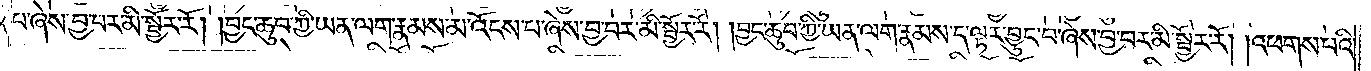པ་ཞེས་བྱ་བར་མི་སྦྱོར་རོ། །བྱང་ཆུབ་ཀྱི་ཡན་ལག་རྣམས་མ་འོངས་པ་ཞེས་བྱ་བར་མི་སྦྱོར་རོ། །བྱང་ཆུབ་ཀྱི་ཡན་ལག་རྣམས་ད་ལྟར་བྱུང་བ་ཞེས་བྱ་བར་མི་སྦྱོར་རོ། །འཕགས་པའི་
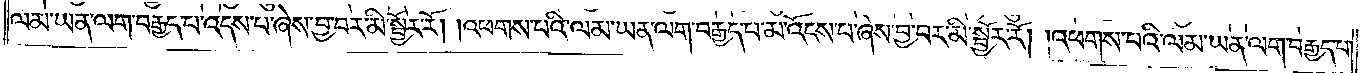ལམ་ཡན་ལག་བརྒྱད་པ་འདས་པ་ཞེས་བྱ་བར་མི་སྦྱོར་རོ། །འཕགས་པའི་ལམ་ཡན་ལག་བརྒྱད་པ་མ་འོངས་པ་ཞེས་བྱ་བར་མི་སྦྱོར་རོ། །འཕགས་པའི་ལམ་ཡན་ལག་བརྒྱད་པ་
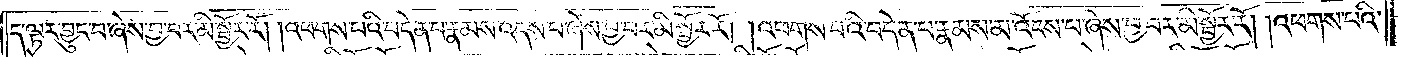ད་ལྟར་བྱུང་བ་ཞེས་བྱ་བར་མི་སྦྱོར་རོ། །འཕགས་པའི་བདེན་པ་རྣམས་འདས་པ་ཞེས་བྱ་བར་མི་སྦྱོར་རོ། །འཕགས་པའི་བདེན་པ་རྣམས་མ་འོངས་པ་ཞེས་བྱ་བར་མི་སྦྱོར་རོ། །འཕགས་པའི་
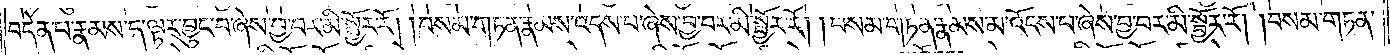བདེན་པ་རྣམས་ད་ལྟར་བྱུང་བ་ཞེས་བྱ་བར་མི་སྦྱོར་རོ། །བསམ་གཏན་རྣམས་འདས་པ་ཞེས་བྱ་བར་མི་སྦྱོར་རོ། །བསམ་གཏན་རྣམས་མ་འོངས་པ་ཞེས་བྱ་བར་མི་སྦྱོར་རོ། །བསམ་གཏན་
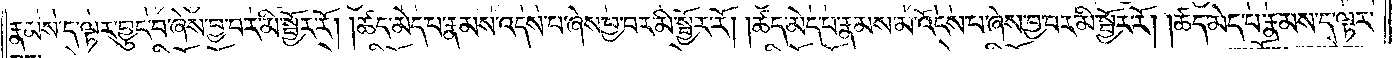རྣམས་ད་ལྟར་བྱུང་བ་ཞེས་བྱ་བར་མི་སྦྱོར་རོ། །ཚད་མེད་པ་རྣམས་འདས་པ་ཞེས་བྱ་བར་མི་སྦྱོར་རོ། །ཚད་མེད་པ་རྣམས་མ་འོངས་པ་ཞེས་བྱ་བར་མི་སྦྱོར་རོ། །ཚད་མེད་པ་རྣམས་ད་ལྟར་
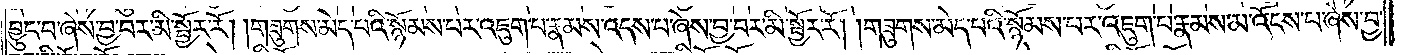བྱུང་བ་ཞེས་བྱ་བར་མི་སྦྱོར་རོ། །གཟུགས་མེད་པའི་སྙོམས་པར་འཇུག་པ་རྣམས་འདས་པ་ཞེས་བྱ་བར་མི་སྦྱོར་རོ། །གཟུགས་མེད་པའི་སྙོམས་པར་འཇུག་པ་རྣམས་མ་འོངས་པ་ཞེས་བྱ་
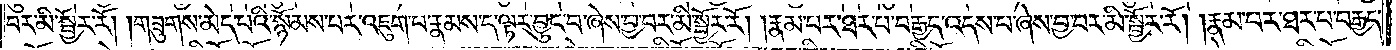བར་མི་སྦྱོར་རོ། །གཟུགས་མེད་པའི་སྙོམས་པར་འཇུག་པ་རྣམས་ད་ལྟར་བྱུང་བ་ཞེས་བྱ་བར་མི་སྦྱོར་རོ། །རྣམ་པར་ཐར་པ་བརྒྱད་འདས་པ་ཞེས་བྱ་བར་མི་སྦྱོར་རོ། །རྣམ་པར་ཐར་པ་བརྒྱད་
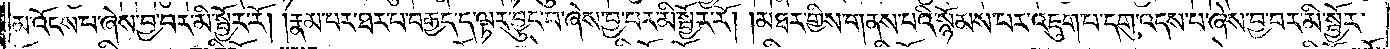མ་འོངས་པ་ཞེས་བྱ་བར་མི་སྦྱོར་རོ། །རྣམ་པར་ཐར་པ་བརྒྱད་ད་ལྟར་བྱུང་བ་ཞེས་བྱ་བར་མི་སྦྱོར་རོ། །མཐར་གྱིས་གནས་པའི་སྙོམས་པར་འཇུག་པ་དགུ་འདས་པ་ཞེས་བྱ་བར་མི་སྦྱོར་
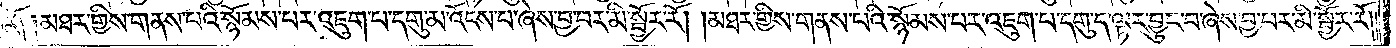རོ༑ ༑མཐར་གྱིས་གནས་པའི་སྙོམས་པར་འཇུག་པ་དགུ་མ་འོངས་པ་ཞེས་བྱ་བར་མི་སྦྱོར་རོ། །མཐར་གྱིས་གནས་པའི་སྙོམས་པར་འཇུག་པ་དགུ་ད་ལྟར་བྱུང་བ་ཞེས་བྱ་བར་མི་སྦྱོར་རོ༎
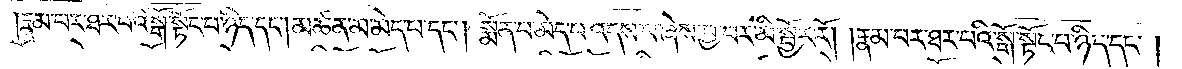རྣམ་པར་ཐར་པའི་སྒོ་སྟོང་པ་ཉིད་དང༌། མཚན་མ་མེད་པ་དང༌། སྨོན་པ་མེད་པ་འདས་པ་ཞེས་བྱ་བར་མི་སྦྱོར་རོ། །རྣམ་པར་ཐར་པའི་སྒོ་སྟོང་པ་ཉིད་དང༌། །
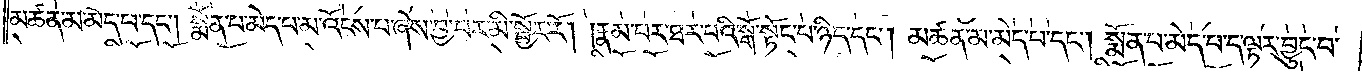མཚན་མ་མེད་པ་དང༌། སྨོན་པ་མེད་པ་མ་འོངས་པ་ཞེས་བྱ་བར་མི་སྦྱོར་རོ། །རྣམ་པར་ཐར་པའི་སྒོ་སྟོང་པ་ཉིད་དང༌། མཚན་མ་མེད་པ་དང༌། སྨོན་པ་མེད་པ་ད་ལྟར་བྱུང་བ་
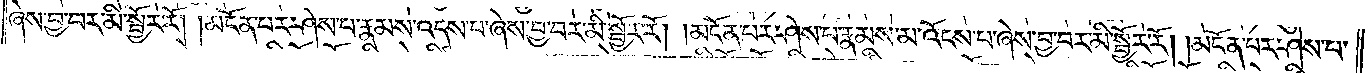ཞེས་བྱ་བར་མི་སྦྱོར་རོ། །མངོན་པར་ཤེས་པ་རྣམས་འདས་པ་ཞེས་བྱ་བར་མི་སྦྱོར་རོ། །མངོན་པར་ཤེས་པ་རྣམས་མ་འོངས་པ་ཞེས་བྱ་བར་མི་སྦྱོར་རོ། །མངོན་པར་ཤེས་པ་
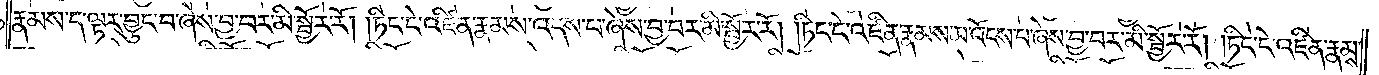རྣམས་ད་ལྟར་བྱུང་བ་ཞེས་བྱ་བར་མི་སྦྱོར་རོ། །ཏིང་ངེ་འཛིན་རྣམས་འདས་པ་ཞེས་བྱ་བར་མི་སྦྱོར་རོ། །ཏིང་ངེ་འཛིན་རྣམས་མ་འོངས་པ་ཞེས་བྱ་བར་མི་སྦྱོར་རོ། །ཏིང་ངེ་འཛིན་རྣམས་
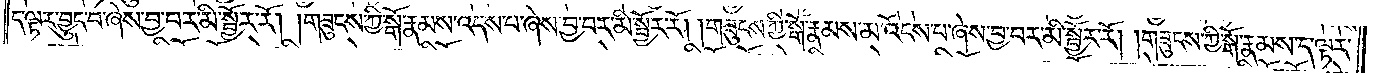ད་ལྟར་བྱུང་བ་ཞེས་བྱ་བར་མི་སྦྱོར་རོ། །གཟུངས་ཀྱི་སྒོ་རྣམས་འདས་པ་ཞེས་བྱ་བར་མི་སྦྱོར་རོ། །གཟུངས་ཀྱི་སྒོ་རྣམས་མ་འོངས་པ་ཞེས་བྱ་བར་མི་སྦྱོར་རོ། །གཟུངས་ཀྱི་སྒོ་རྣམས་ད་ལྟར་
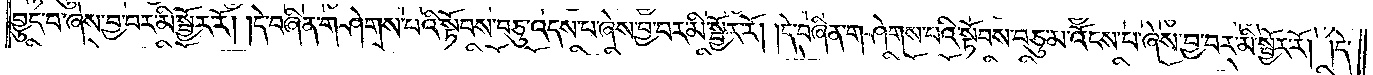བྱུང་བ་ཞེས་བྱ་བར་མི་སྦྱོར་རོ། །དེ་བཞིན་གཤེགས་པའི་སྟོབས་བཅུ་འདས་པ་ཞེས་བྱ་བར་མི་སྦྱོར་རོ། །དེ་བཞིན་གཤེགས་པའི་སྟོབས་བཅུ་མ་འོངས་པ་ཞེས་བྱ་བར་མི་སྦྱོར་རོ། །དེ་
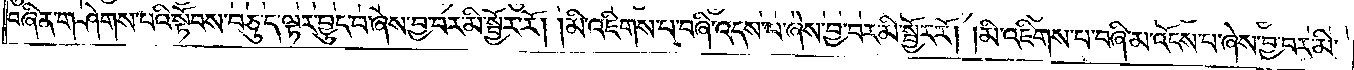བཞིན་གཤེགས་པའི་སྟོབས་བཅུ་ད་ལྟར་བྱུང་བ་ཞེས་བྱ་བར་མི་སྦྱོར་རོ། །མི་འཇིགས་པ་བཞི་འདས་པ་ཞེས་བྱ་བར་མི་སྦྱོར་རོ། །མི་འཇིགས་པ་བཞི་མ་འོངས་པ་ཞེས་བྱ་བར་མི་
